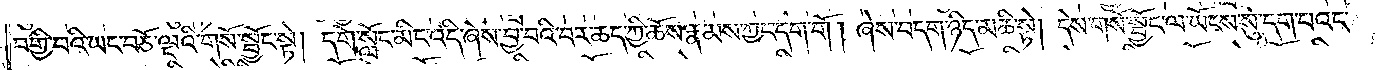བགྱི་བའི་ཡང་བཅོ་ལྔའི་གསོ་སྦྱོང་སྟེ། དགེ་སློང་མིང་འདི་ཞེས་བྱ་བའི་བར་ཆད་ཀྱི་ཆོས་རྣམས་ཀྱང་དག་གོ། ཞེས་བདག་ཉིད་མཆི་སྟེ། དེས་གསོ་སྦྱོང་ལ་ཡོངས་སུ་དག་པའང་
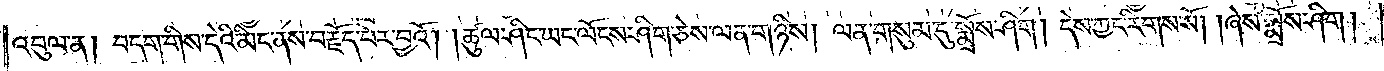འབུལ་ན། བདག་གིས་དེའི་མིང་ནས་བརྗོད་པར་བྱའོ། །ཚུལ་ཤིང་ཡང་ལོངས་ཤིག་ཅེས་ལན་གཉིས། ལན་གསུམ་དུ་སྨྲོས་ཤིག། དེས་ཀྱང་རིགས་སོ། །ཞེས་སྨྲོས་ཤིག །
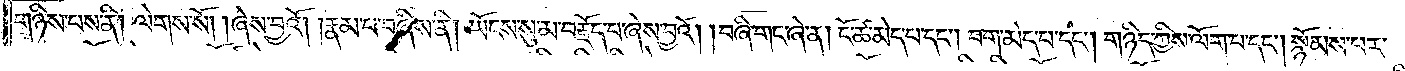གཉིས་པས་ནི། ལེགས་སོ། །ཞེས་བྱའོ། །རྣམ་པ་བཞིས་ནི། ཡོངས་སུ་མ་བརྗོད་པ་ཞེས་བྱའོ། །བཞི་གང་ཞེ་ན། ངོ་ཚ་མེད་པ་དང༌། བག་མེད་པ་དང༌། གཉིད་ཀྱིས་ལོག་པ་དང༌། སྙོམས་པར་
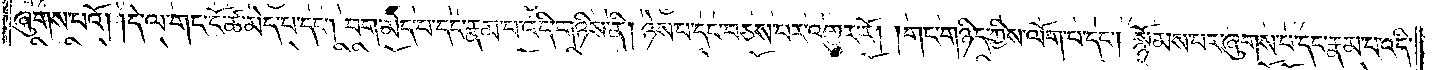ཞུགས་པའོ། །དེ་ལ་གང་ངོ་ཚ་མེད་པ་དང༌། བག་མེད་པ་དང་རྣམ་པ་འདི་གཉིས་ནི། ཉེས་པ་དང་བཅས་པར་འགྱུར་རོ། །གང་གཉིད་ཀྱིས་ལོག་པ་དང༌། སྙོམས་པར་ཞུགས་པ་དང་རྣམ་པ་འདི་
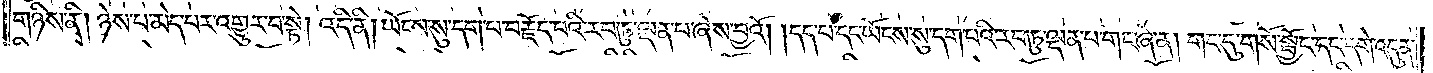གཉིས་ནི། ཉེས་པ་མེད་པར་འགྱུར་བ་སྟེ། འདི་ནི། ཡོངས་སུ་དག་པ་བརྗོད་པའི་རབ་ཏུ་ལྡན་པ་ཞེས་བྱའོ། །དད་པ་དང་ཡོངས་སུ་དག་པའི་རབ་ཏུ་ལྡན་པ་གང་ཞེ་ན། གང་དུ་གསོ་སྦྱོང་དང་དགེ་འདུན་
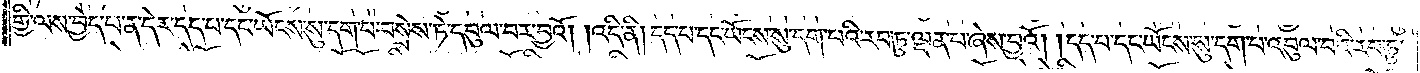གྱི་ལས་བྱེད་པ་ན་དེར་དད་པ་དང་ཡོངས་སུ་དག་པ་བསྲེས་ཏེ་དབུལ་བར་བྱའོ། །འདི་ནི། དད་པ་དང་ཡོངས་སུ་དག་པའི་རབ་ཏུ་ལྡན་པ་ཞེས་བྱའོ། །དད་པ་དང་ཡོངས་སུ་དག་པ་འབུལ་བའི་རབ་ཏུ་
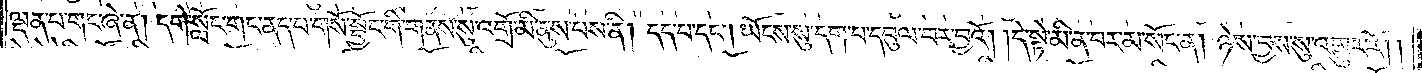ལྡན་པ་གང་ཞེ་ན། དགེ་སློང་གང་ནད་པ་གསོ་སྦྱོང་གི་གནས་སུ་འགྲོ་མི་ནུས་པས་ནི། དད་པ་དང༌། ཡོངས་སུ་དག་པ་དབུལ་བར་བྱའོ། །དེ་སྟེ་མི་ན་བར་མ་སོང་ན། ཉེས་བྱས་སུ་འགྱུར་རོ། །
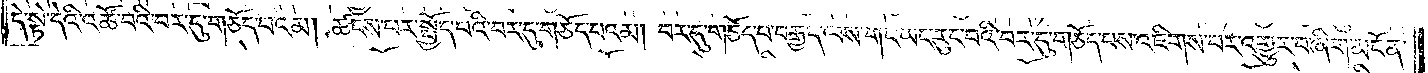དེ་སྟེ་དེའི་འཚོ་བའི་བར་དུ་གཅོད་པའམ། ཚངས་པར་སྤྱོད་པའི་བར་དུ་གཅོད་པའམ། བར་དུ་གཅོད་པ་བརྒྱད་ལས་གང་ཡང་རུང་བའི་བར་དུ་གཅོད་པས་འཇིགས་པར་འགྱུར་བ་ཞིག་མངོན་
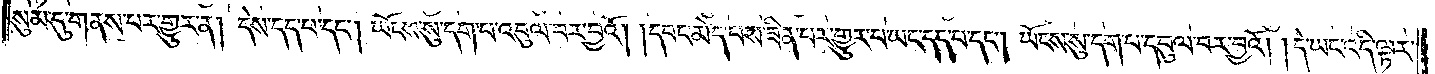སུམ་དུ་གནས་པར་གྱུར་ན། དེས་དད་པ་དང༌། ཡོངས་སུ་དག་པ་འབུལ་བར་བྱའོ། །དབང་མེད་པས་ཟིན་པར་གྱུར་པ་ཡང་དད་པ་དང༌། ཡོངས་སུ་དག་པ་དབུལ་བར་བྱའོ། །དེ་ཡང་འདི་ལྟར་
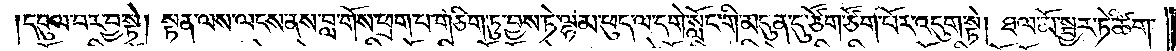དབུལ་བར་བྱ་སྟེ། སྟན་ལས་ལངས་ནས་བླ་གོས་ཕྲག་པ་གཅིག་ཏུ་བྱས་ཏེ་ལྷམ་ཕུད་ལ་དགེ་སློང་གི་མདུན་དུ་ཙོག་ཙོག་པོར་འདུག་སྟེ། ཐལ་མོ་སྦྱར་ཏེ་ཚིག་
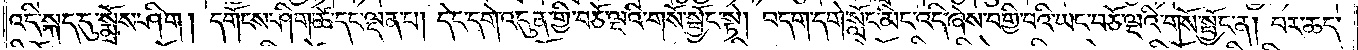འདི་སྐད་དུ་སྨྲོས་ཤིག། དགོངས་ཤིག་ཚེ་དང་ལྡན་པ། དེང་དགེ་འདུན་གྱི་བཅོ་ལྔའི་གསོ་སྦྱོང་སྟེ། བདག་དགེ་སློང་མིང་འདི་ཞེས་བགྱི་བའི་ཡང་བཅོ་ལྔའི་གསོ་སྦྱོང་ན། བར་ཆད་
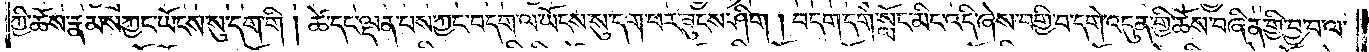ཀྱི་ཆོས་རྣམས་ཀྱང་ཡོངས་སུ་དག་གི །ཚེ་དང་ལྡན་པས་ཀྱང་བདག་ལ་ཡོངས་སུ་དག་པར་ཟུངས་ཤིག །བདག་དགེ་སློང་མིང་འདི་ཞེས་བགྱི་བ་དགེ་འདུན་གྱི་ཆོས་བཞིན་གྱི་བྱ་བ་ལ་
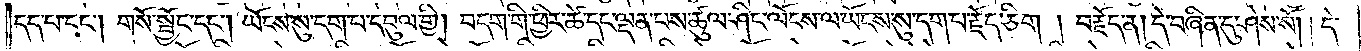དད་པ་དང༌། གསོ་སྦྱོང་དང༌། ཡོངས་སུ་དག་པ་དབུལ་གྱི། བདག་གི་ཕྱིར་ཚེ་དང་ལྡན་པས་ཚུལ་ཤིང་ལོངས་ལ་ཡོངས་སུ་དག་པ་རྗོད་ཅིག །བརྗོད་ན། དེ་བཞིན་དུ་ཤེས་སོ། །དེ་
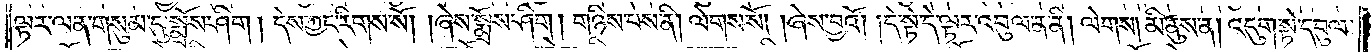ལྟར་ལན་གསུམ་དུ་སྨྲོས་ཤིག །དེས་ཀྱང་རིགས་སོ། །ཞེས་སྨྲོས་ཤིག །གཉིས་པས་ནི། ལེགས་སོ། །ཞེས་བྱའོ། །དེ་སྟེ་དེ་ལྟར་འབུལ་ན་ནི། ལེགས། མི་ནུས་ན། འདུག་སྟེ་དབུལ་
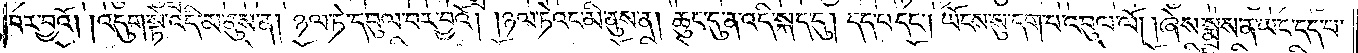བར་བྱའོ། །འདུག་སྟེ་འདི་མ་ནུས་ན། ཉལ་ཏེ་དབུལ་བར་བྱའོ། །ཉལ་ཏེའང་མི་ནུས་ན། ཆུང་ངུ་ན་འདི་སྐད་དུ། དད་པ་དང༌། ཡོངས་སུ་དག་པ་འབུལ་ལོ། །ཞེས་སྨྲས་ན་ཡང་དད་པ་
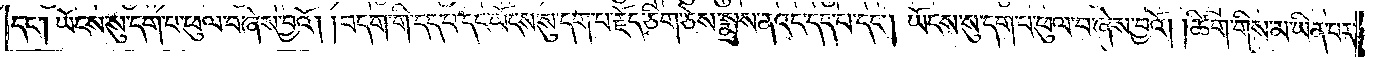དང༌། ཡོངས་སུ་དག་པ་ཕུལ་བ་ཞེས་བྱའོ། །བདག་གི་དད་པ་དང་ཡོངས་སུ་དག་པ་རྗོད་ཅིག་ཅེས་སྨྲས་ནའང་དད་པ་དང༌། ཡོངས་སུ་དག་པ་ཕུལ་བ་ཞེས་བྱའོ། །ཚིག་གིས་མ་ཡིན་པར་
